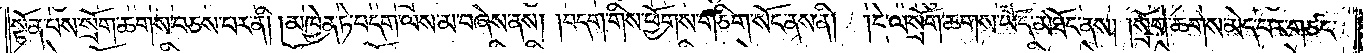སྟོན་པས་སྲོག་ཆགས་བཅས་པར་ནི། །མཁྱེན་ཏེ་བདག་ལས་མ་བཞེས་ནས། །བདག་གིས་ཕྱོགས་གཅིག་སོང་ནས་ནི། །དེ་ལ་སྲོག་ཆགས་ཡོད་མཐོང་ནས། །སྲོག་ཆགས་མེད་པར་གཙང་
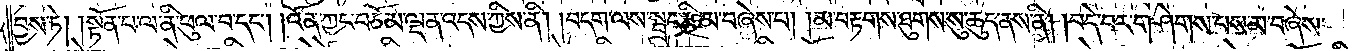བྱས་ཏེ། །སྟོན་པ་ལ་ནི་ཕུལ་བ་དང༌། །འོན་ཀྱང་བཅོམ་ལྡན་འདས་ཀྱིས་ནི། །བདག་ལས་སྦྲང་རྩི་མ་བཞེས་པ། །མ་བརྟགས་ཐུགས་སུ་ཆུད་ནས་ནི། །བདེ་བར་གཤེགས་པས་མ་བཞེས་
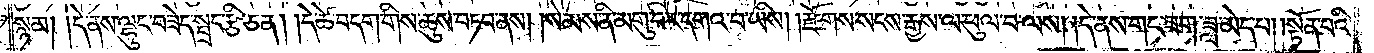སྙམ། །དེ་ནས་ལྷུང་བཟེད་སྦྲང་རྩི་ཅན། །དེ་ཚེ་བདག་གིས་ཆུས་བཏབ་ནས། །སེམས་ནི་མགུ་བར་དགའ་བ་ཡིས། །རྫོགས་སངས་རྒྱས་ལ་ཕུལ་བ་ལས། །དེ་ནས་གང་ཟག་ཟླ་མེད་པ། །སྟོན་པའི་
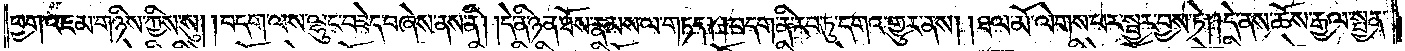ཕྱག་འཇམ་གཉིས་ཀྱིས་སུ། །བདག་ལས་ལྷུང་བཟེད་བཞེས་ནས་ནི། །དེ་ནི་ཉན་ཐོས་རྣམས་ལ་གཏད། །བདག་ནི་རབ་ཏུ་དགའ་གྱུར་ནས། །ཐལ་མོ་ལེགས་པར་སྦྱར་བྱས་ཏེ། །དེ་ནས་ཆོས་རྒྱལ་སྤྱན་
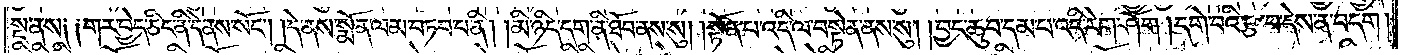སྔ་ནས༑ ༑གར་བྱེད་ཅིང་ནི་དེ་ནས་སོང༌། །དེ་ནས་སྨོན་ལམ་བཏབ་པ་ནི། །མི་ཉིད་དག་ནི་ཐོབ་ནས་སུ། །སྟོན་པ་འདི་ལ་བསྟེན་ནས་སུ། །བྱང་ཆུབ་དམ་པ་འདི་རེག་ཤོག །དགེ་བའི་རྩ་བ་དེས་ན་བདག།
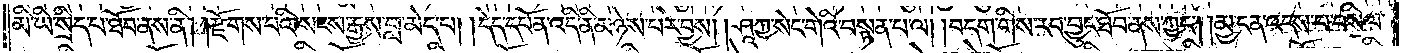མི་ཡི་སྲིད་པ་ཐོབ་ནས་ནི། །རྫོགས་པའི་སངས་རྒྱས་བླ་མེད་པ། །དེད་དཔོན་འདི་ནི་མཉེས་པར་བྱས། །ཤཱཀྱ་སེང་གེའི་བསྟན་པ་ལ། །བདག་གིས་རབ་བྱུང་ཐོབ་ནས་ཀྱང༌། །མྱ་ངན་འདས་པ་བསིལ་
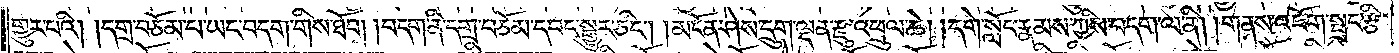གྱུར་པའི། །དགྲ་བཅོམ་པ་ཡང་བདག་གིས་ཐོབ། །བདག་ནི་དགྲ་བཅོམ་དབང་སྒྱུར་ཅིང༌། །མངོན་ཤེས་དྲུག་ལྡན་རྫུ་འཕྲུལ་ཆེ། །དགེ་སློང་རྣམས་ཀྱིས་བདག་ལ་ནི། །གནས་འཇོག་སྦྲང་རྩི་
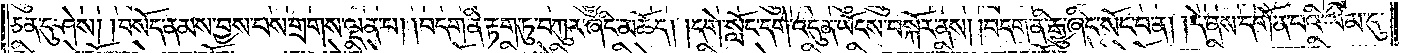ཅན་དུ་ཤེས། །བསོད་ནམས་བྱས་པས་གྲགས་ལྡན་པ། །བདག་ནི་རྟག་ཏུ་བཀུར་ཞིང་མཆོད། །དགེ་སློང་དགེ་འདུན་ཡོངས་བསྐོར་ནས། །བདག་ནི་རྒྱུ་ཞིང་སོང་བ་ན། །དེ་ནས་དགོན་པའི་ལམ་དུ་
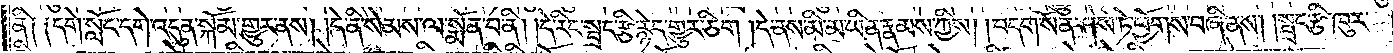ནི༑ ༑དགེ་སློང་དགེ་འདུན་སྐོམ་གྱུར་ནས། །དེ་ནི་སེམས་ལ་སྨོན་བ་ནི། །དེ་རིང་སྦྲང་རྩི་རྙེད་གྱུར་ཅིག །དེ་ནས་མི་མ་ཡིན་རྣམས་ཀྱིས། །བདག་སོན་ཤེས་ཏེ་ཕྱོགས་བཞི་ནས། །སྦྲང་རྩི་ཁུར་
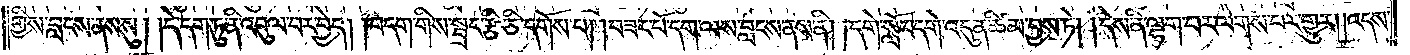གྱིས་བླངས་ནས་སུ། །དེ་དག་ཏུ་ནི་འབུལ་བར་བྱེད། །བདག་གིས་སྦྲང་རྩི་ཅི་དགོས་པ། །བཟང་པོ་དག་ལས་བླངས་ནས་ནི། །དགེ་སློང་དགེ་འདུན་ཚིམ་བྱས་ཏེ། །དེས་ནི་ལྷག་པར་ལེགས་པར་གྱུར། །འདས་
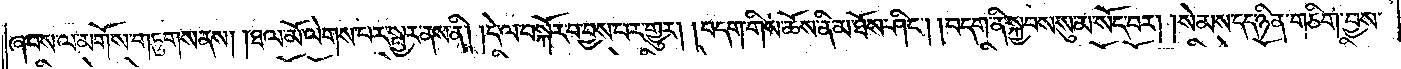ཞབས་ལ་མགོས་གཏུགས་ནས། །ཐལ་མོ་ལེགས་པར་སྦྱར་ནས་ནི། །དེ་ལ་བསྐོར་བ་བྱས་པར་གྱུར། །བདག་གིས་ཆོས་ནི་མ་ཐོས་ཤིང༌། །བདག་ནི་སྐྱབས་སུ་མ་སོང་བར། །སེམས་དད་ཉིན་གཅིག་བྱས་
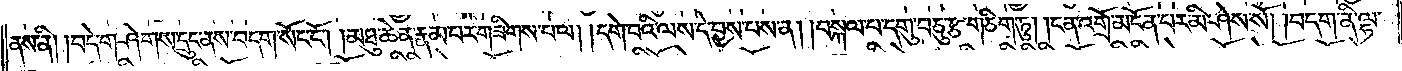ནས་ནི། །བདེ་གཤེགས་དྲུང་ནས་བདག་སོང་ངོ༌། །མཐུ་ཆེན་རྣམ་པར་གཟིགས་པ་ལ། །དགེ་བའི་ལས་དེ་བྱས་པས་ན། །བསྐལ་པ་དགུ་བཅུ་རྩ་གཅིག་ཏུ། །ངན་འགྲོ་མངོན་པར་མི་ཤེས་སོ། །བདག་ནི་ལྷ་
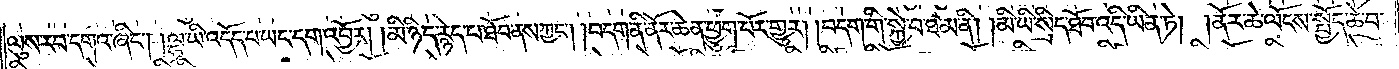ལུས་རབ་དགའ་ཞིང༌། །ལྷ་ཡི་འདོད་པ་ཡང་དག་འབྱོར། །མི་ཉིད་རྙེད་པ་ཐོབ་ནས་ཀྱང༌། །བདག་ནི་ནོར་ཆེན་ཕྱུག་པོར་གྱུར། །བདག་གི་སྐྱེ་བ་ཐ་མ་ནི། །མི་ཡི་སྲིད་ཐོབ་འདི་ཡིན་ཏེ། །ནོར་ཆེ་ལོངས་སྤྱོད་ཆེ་བ་
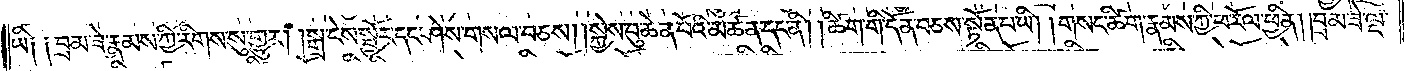ཡི༑ ༑བྲམ་ཟེ་རྣམས་ཀྱི་རིགས་སུ་གྱུར། །སྒྲ་ངེས་སྦྱོར་དང་ཤེས་གསལ་བཅས། །སྐྱེས་བུ་ཆེན་པོའི་མཚན་དང་ནི། །ཚིག་གི་དོན་བཅས་སྟོན་པ་ཡི། །གསང་ཚིག་རྣམས་ཀྱི་ཕ་རོལ་ཕྱིན། །བྲམ་ཟེ་ལྔ་
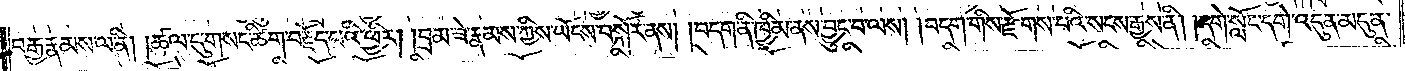བརྒྱ་རྣམས་ལ་ནི། །ཚལ་དུ་གསང་ཚིག་བརྗོད་པའི་ཕྱིར། །བྲམ་ཟེ་རྣམས་ཀྱིས་ཡོངས་བསྐོར་ནས། །བདག་ནི་ཁྱིམ་ནས་བྱུང་བ་ལས། །བདག་གིས་རྫོགས་པའི་སངས་རྒྱས་ནི། །དགེ་སློང་དགེ་འདུན་མདུན་
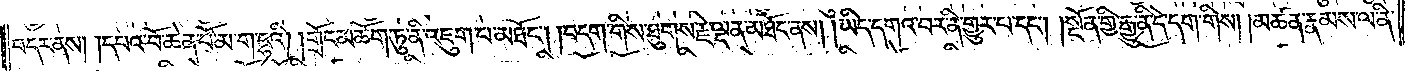བདར་ནས། །དཔའ་བོ་ཆེན་པོ་མ་ག་དྷའི། །གྲོང་མཆོག་ཏུ་ནི་འཇུག་པ་མཐོང༌། །བདག་གིས་ཐུགས་རྗེ་ལྡན་མཐོང་ནས། །ཡིད་དགའ་བར་ནི་གྱུར་པ་དང༌། །སྔོན་གྱི་རྒྱུ་ནི་དེ་དག་གིས། །མཚན་རྣམས་ལ་ནི་
